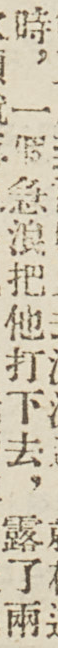時，一個急浪把他打下去，露了兩
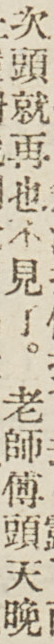次頭就再也不見了。老師傅頭天晚
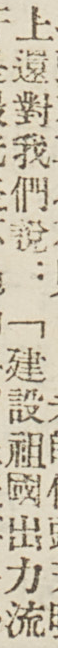上還對我們說：「建設祖國出力流
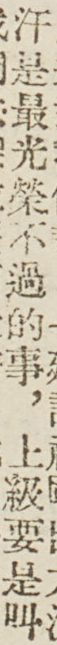汗是最光榮不過的事，上級要是叫
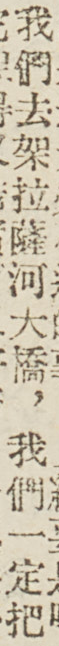我們去架拉薩河大橋，我們一定把
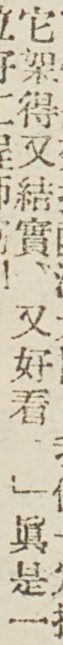它架得又結實、又好看。」眞是一
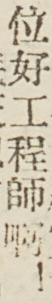位好工程師啊！
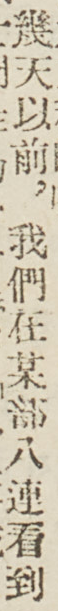幾天以前，我們在某部八連看到
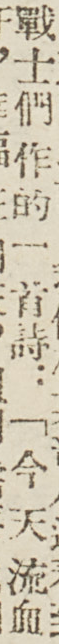戰士們作的一首詩：「今天流血
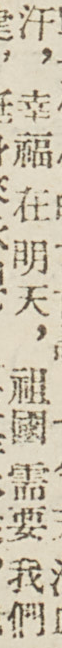汗，幸福在明天，祖國需要我們
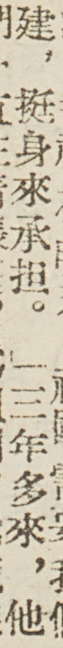建，挺身來承担。」三年多來，他
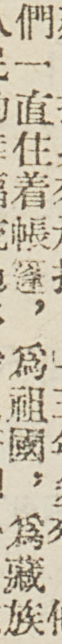們一直住着帳篷，爲祖國，爲藏族
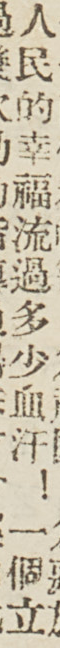人民的幸福流過多少血汗！一個立
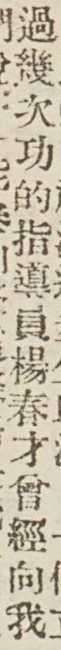過幾次功的指導員楊春才曾經向我
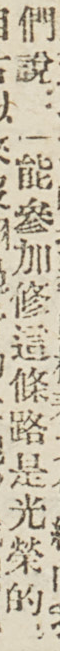們說：「能參加修這條路是光榮的，
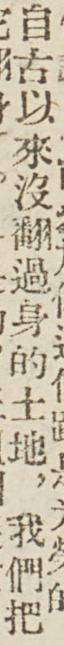自古以來沒翻過身的土地，我們把
